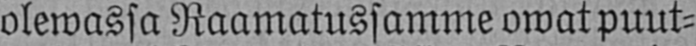olewassa Raamatussamme owat puut-
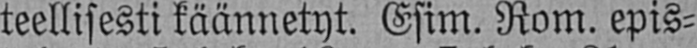teellisesti käännetyt. Esim. Rom. epis-
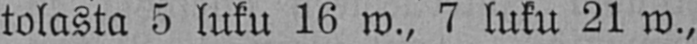tolasta 5 luku 16 w., 7 luku 21 w.,
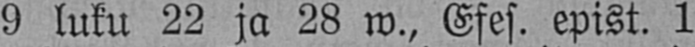9 luku 22 ja 28 w., Eses. epist. 1
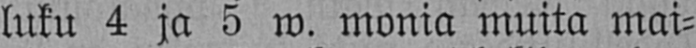luku 4 ja 5 w. monia muita mai-
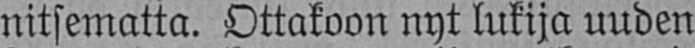nitsematta. Ottakoon nyt lukija uuden
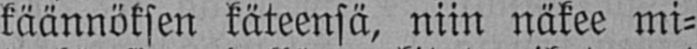käännöksen käteensä, niin näkee mi-
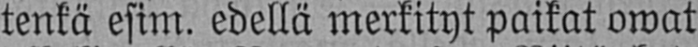tenkä esim. edellä merkityt paikat owat
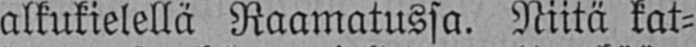alkukielellä Raamatussa. Niitä kat-
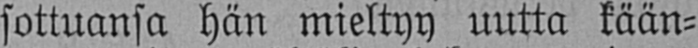sottuansa hän mieltyy uutta kään-
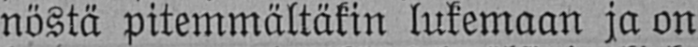nöstä pitemmältäkin lukemaan ja on
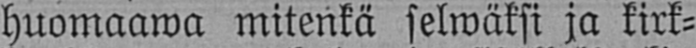huomaawa mitenkä selwäksi ja kirk-
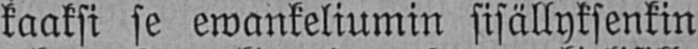kaaksi se ewankeliumin sisällyksenkin
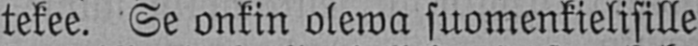tekee. Se onkin olema suomenkielisille
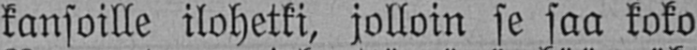kansoille ilohetki, jolloin se saa koko
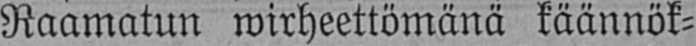Raamatun wirheettömänä käännök-
